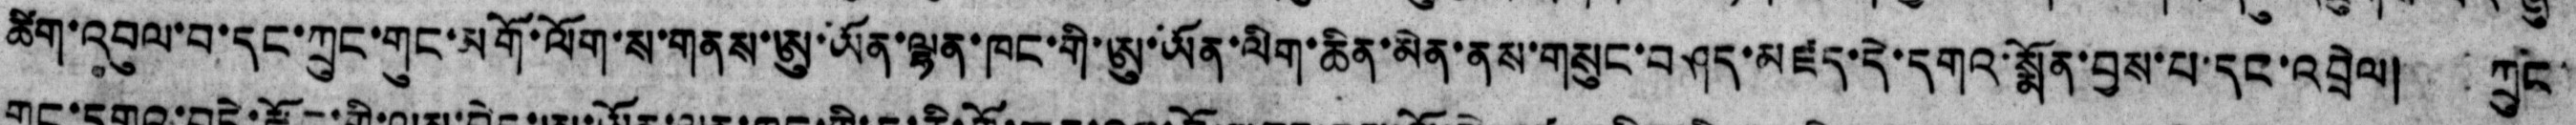ཚིག་འབུལ་བ་དང་ཀྲུང་གུང་མགོ་ལོག་ས་གནས་ཨུ་ཡོན་ལྷན་ཁང་གི་ཨུ་ཡོན་ལིག་ཆིན་མེན་ནས་གསུང་བཤད་མཛད་དེ་དགའ་སྨོན་བྱས་པ་དང་འབྲེལ། ཀྲུང་
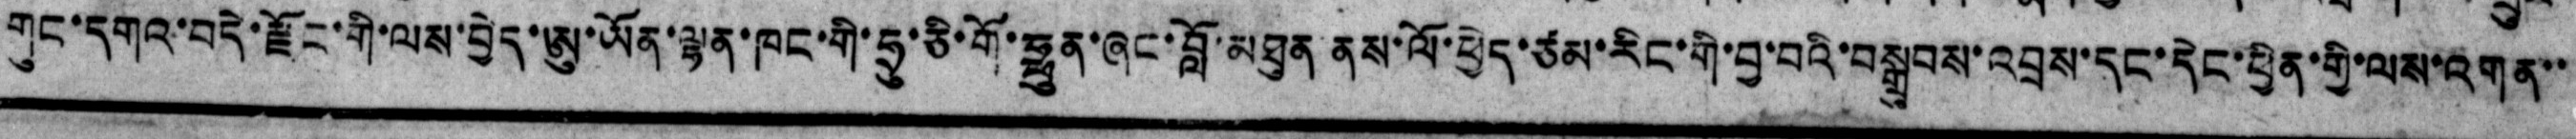གུང་དགའ་བདེ་རྫོང་གི་ལས་བྱེད་ཨུ་ཡོན་ལྷན་ཁང་གི་ཧྲུ་ཅི་གོ་ཧྥུན་ཞང་བློ་མཐུན་ནས་ལོ་ཕྱེད་ཙམ་རིང་གི་བྱ་བའི་བསྒྲུབས་འབྲས་དང་དེང་ཕྱིན་གྱི་ལས་འགན་་
